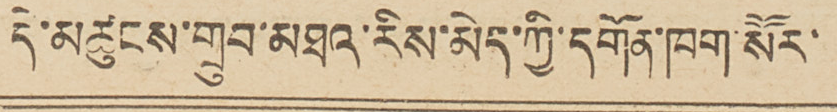དེ་མཚུངས་གྲུབ་མཐའ་རིས་མེད་ཀྱི་དགོན་ཁག་སཽར་
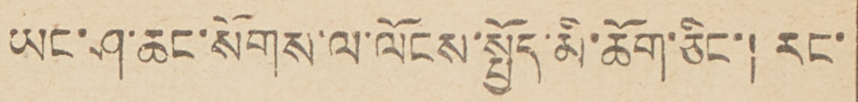ཡང་ཤ་ཆང་སོགས་ལ་ལོངས་སྤྱོད་མི་ཆོག་ཅིང་། རང་
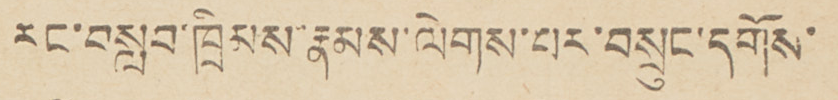རང་བསླབ་ཁྲིམས་རྣམས་ལེགས་པར་བསྲུང་དགོས་
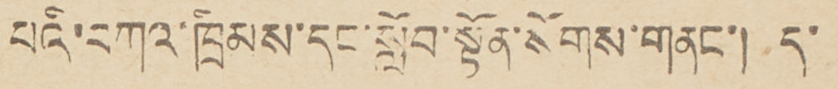པའི་བཀའ་ཁྲིམས་དང་སློབ་སྟོན་སོགས་གནང་། ད་
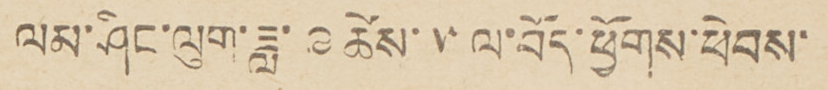ལམ་ཤིང་ལུག་ཟླ་ ༩ ཚེས་ ༥ ལ་བོད་ཕྱོགས་ཕེབས་
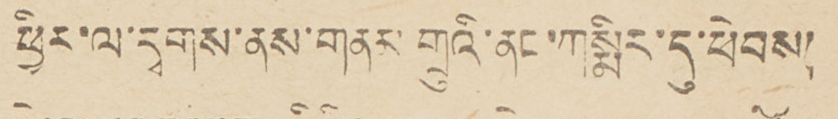ཕྱིར་ལ་དྭགས་ནས་གནམ གྲུའི་ནང་ཀསྨིར་དུ་ཕེབས།
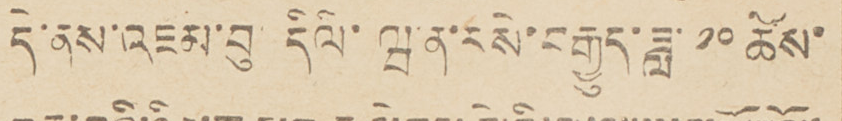དེ་ནས་འཇམ་བུ་ དིལི་ ཝ་ན་རསེ་བརྒྱུད་ཟླ་ ༡༠ ཚེས་
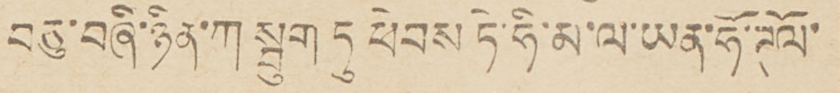བཅུ་བཞི་ཉིན་ཀ སྦུག ཏུ ཕེབས ཏེ་ཧི་མ་ལ་ཡན་ཧོ་ཊོལ་
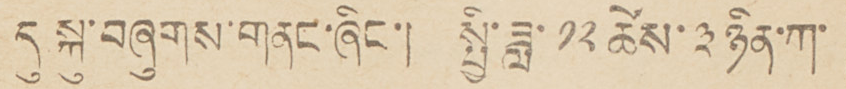དུ སྐུ་བཞུགས་གནང་ཞིང་། སྤྱི་ཟླ་ ༡༢ ཚེས་ ༣ ཉིན་ཀ་
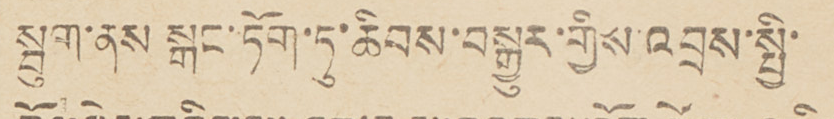སྦུག་ནས སྒང་ཏོག་ཏུ་ཆིབས་བསྒྱུར་གྱིས་འབྲས་སྤྱི་
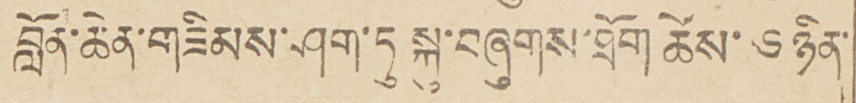བློན་ཆེན་གཟིམས་ཤག་ཏུ སྐུ་བཞུགས་ཐོག ཚེས་ ༦ ཉིན་
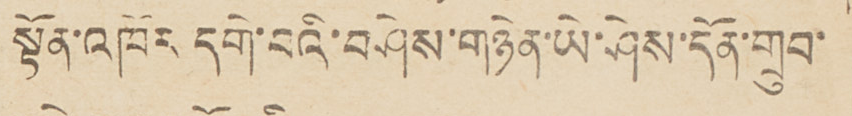སྟོན་འཁོར དགེ་བའི་བཤེས་གཉེན་ཡེ་ཤེས་དོན་གྲུབ་
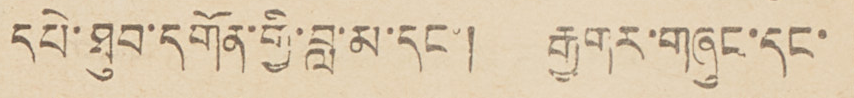དཔེ་ཐུབ་དགོན་གྱི་བླ་མ་དང་། རྒྱ་གར་གཞུང་དང་
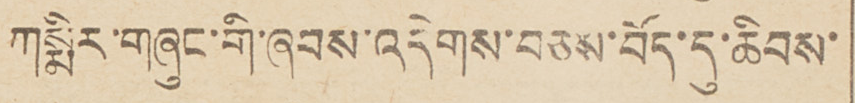ཀསྨིར་གཞུང་གི་ཞབས་འདེགས་བཅས་བོད་དུ་ཆིབས་
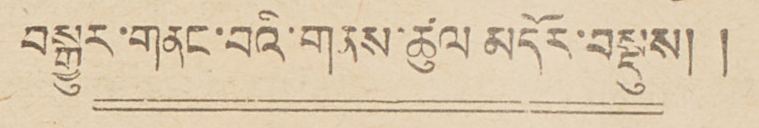བསྒྱུར་གནང་བའི་གནས་ཚུལ མདོར་བསྡུས། །
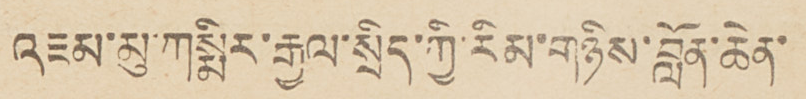འཇམ་མུ་ཀསྨིར་རྒྱལ་སྲིད་ཀྱི་རིམ་གཉིས་བློན་ཆེན་
